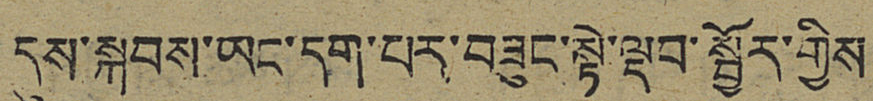དུས་སྐབས་ཡང་དག་པར་བཟུང་སྟེ་ལྡབ་སྦྱོར་གྱིས
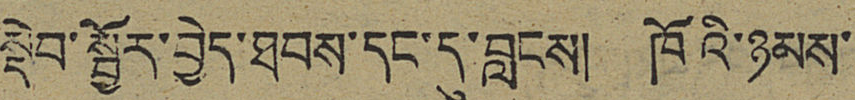སྡེབ་སྦྱོར་བྱེད་ཐབས་དང་དུ་བླངས། ཁོའི་ཉམས་
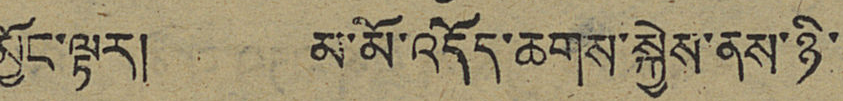མྱོང་ལྟར། མ་མོ་འདོད་ཆགས་སྐྱེས་ནས་ཉི་
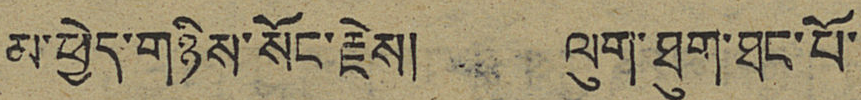མ་ཕྱེད་གཉིས་སོང་རྗེས། ལུག་ཐུག་ཐང་པོ་
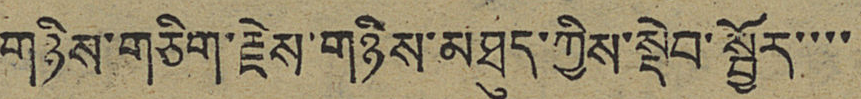གཉིས་གཅིག་རྗེས་གཉིས་མཐུད་ཀྱིས་སྡེབ་སྦྱོར་་་་
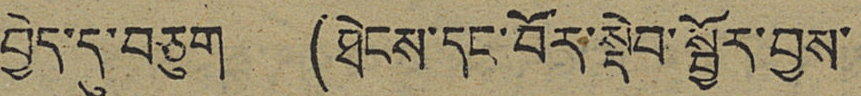བྱེད་དུ་བཅུག (ཐེངས་དང་བོར་སྡེབ་སྦྱོར་བྱས་
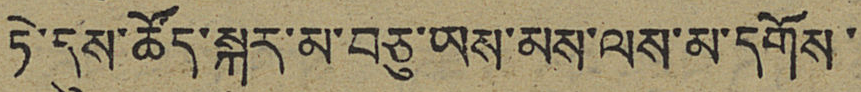ཏེ་དུས་ཚོད་སྐར་མ་བཅུ་ཡས་མས་ལས་མ་དགོས་
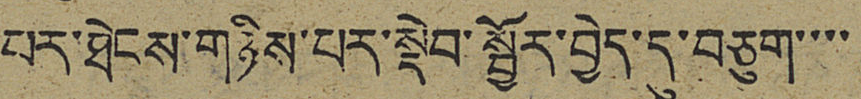པར་ཐེངས་གཉིས་པར་སྡེབ་སྦྱོར་བྱེད་དུ་བཅུག་་་་
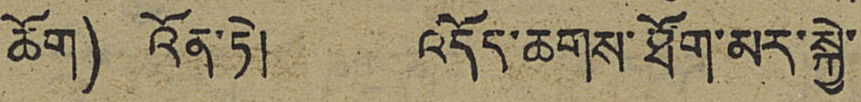ཆོག) འོན་ཏེ། འདོད་ཆགས་ཐོག་མར་སྐྱེ་
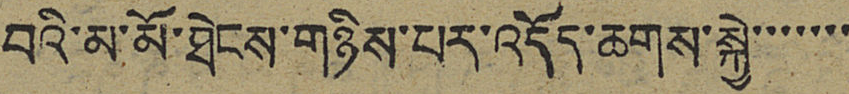བའི་མ་མོ་ཐེངས་གཉིས་པར་འདོད་ཆགས་སྐྱེ་་་་་་་
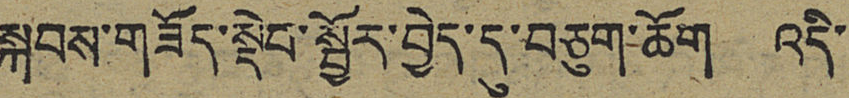སྐབས་གཟོད་སྡེབ་སྦྱོར་བྱེད་དུ་བཅུག་ཆོག འདི་
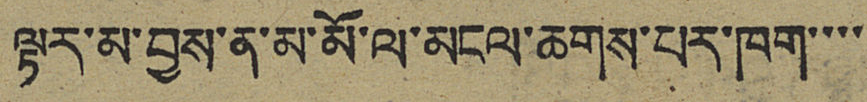ལྟར་མ་བྱས་ན་མ་མོ་ལ་མངལ་ཆགས་པར་ཁག་་་་
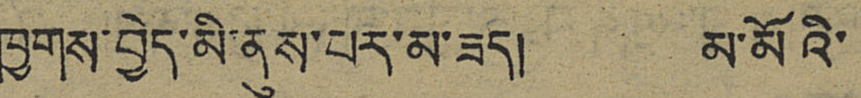ཁྱགས་བྱེད་མི་ནུས་པར་མ་ཟད། མ་མོའི་
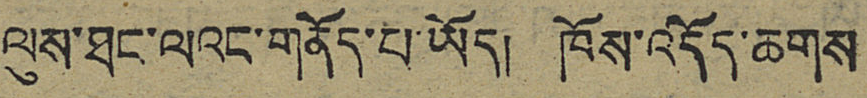ལུས་ཐང་ལའང་གནོད་པ་ཡོད། ཁོས་འདོད་ཆགས
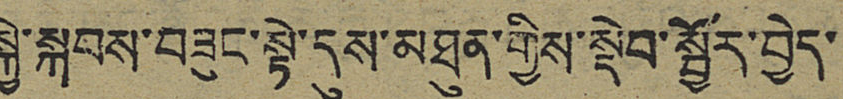སྐྱེ་སྐབས་བཟུང་སྟེ་དུས་མཐུན་གྱིས་སྡེབ་སྦྱོར་བྱེད་
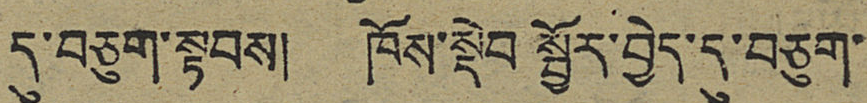དུ་བཅུག་སྟབས། ཁོས་སྡེབ སྦྱོར་བྱེད་དུ་བཅུག་
